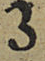3
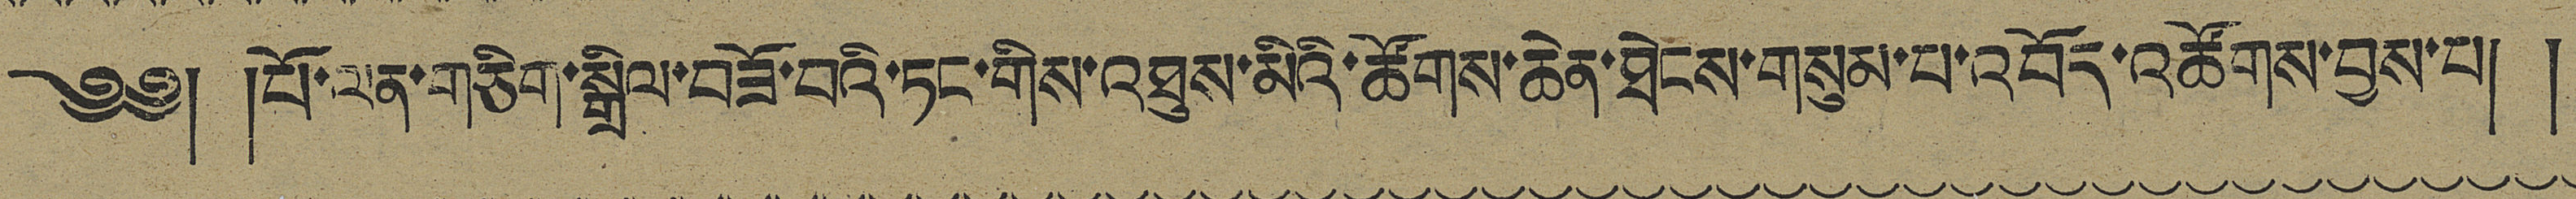༄༅། །པོ་ལན་གཅིག་སྒྲིལ་བཟོ་བའི་ཏང་གིས་འཐུས་མིའི་ཚོགས་ཆེན་ཐེངས་གསུམ་པ་འབོད་འཚོགས་བྱས་པ། །
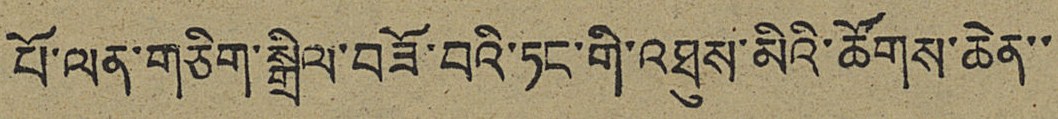པོ་ལན་གཅིག་སྒྲིལ་བཟོ་བའི་ཏང་གི་འཐུས་མིའི་ཚོགས་ཆེན་་
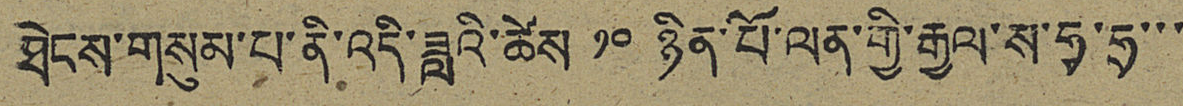ཐེངས་གསུམ་པ་ནི་འདི་ཟླའི་ཚེས ༡༠ ཉིན་པོ་ལན་གྱི་རྒྱལ་ས་ཧྭ་ཧྲ་་་
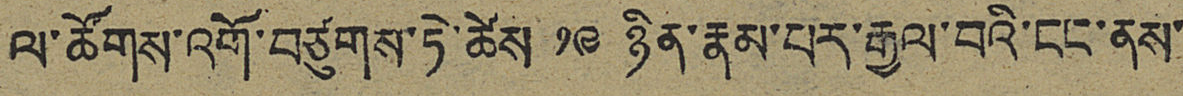ལ་ཚོགས་འགོ་བཙུགས་ཏེ་ཚེས ༡༩ ཉིན་རྣམ་པར་རྒྱལ་བའི་ངང་ནས་
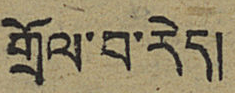གྲོལ་བ་རེད།
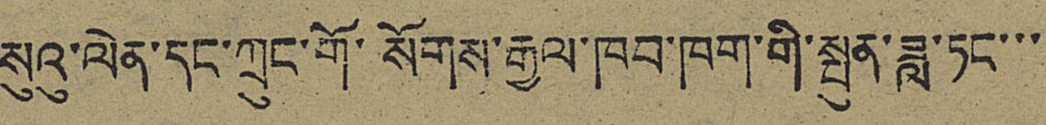སུའུ་ལེན་དང་ཀྲུང་གོ་སོགས་རྒྱལ་ཁབ་ཁག་གི་སྤུན་ཟླ་ཏང་་་
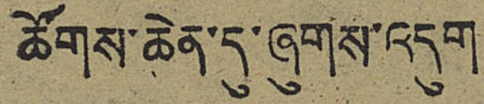ཚོགས་ཆེན་དུ་ཞུགས་འདུག
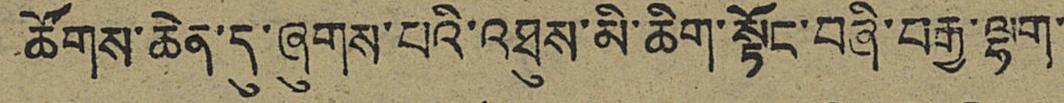ཚོགས་ཆེན་དུ་ཞུགས་པའི་འཐུས་མི་ཆིག་སྟོང་བཞི་བརྒྱ་ལྷག་
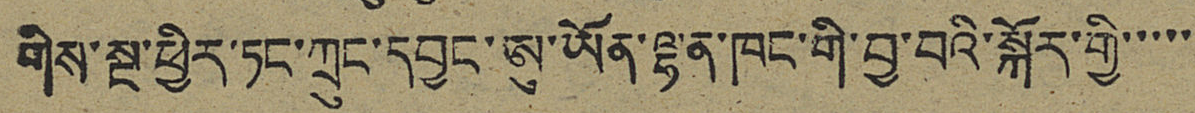གིས་སྔ་ཕྱིར་ཏང་ཀྲུང་དབྱང་ཨུ་ཡོན་ལྷན་ཁང་གི་བྱ་བའི་སྐོར་གྱི་་་་་
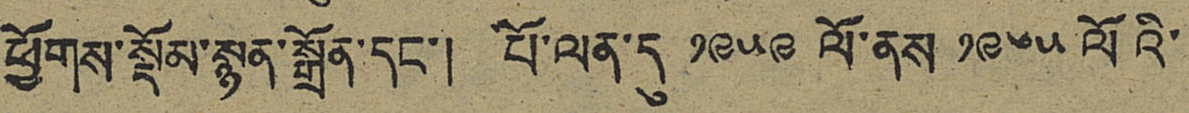ཕྱོགས་སྡོམ་སྙན་སྒྲོན་དང་། པོ་ལན་དུ ༡༩༥༩ ལོ་ནས ༡༩༦༥ ལོའི་
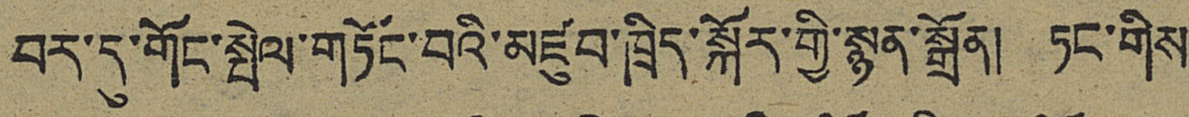བར་དུ་གོང་སྤེལ་གཏོང་བའི་མཛུབ་ཁྲིད་སྐོར་གྱི་སྙན་སྒྲོན། ཏང་གིས
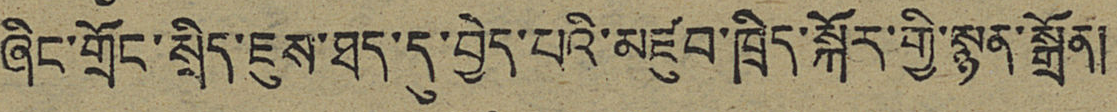ཞིང་གྲོང་སྲིད་ཇུས་ཐད་དུ་བྱེད་པའི་མཛུབ་ཁྲིད་སྐོར་གྱི་སྙན་སྒྲོན།
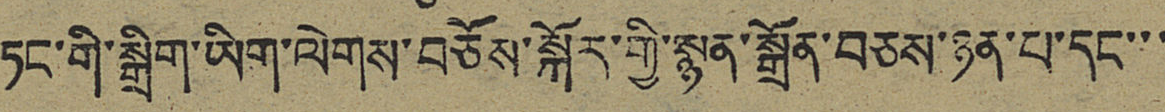ཏང་གི་སྒྲིག་ཡིག་ལེགས་བཅོས་སྐོར་གྱི་སྙན་སྒྲོན་བཅས་ཉན་པ་དང་་་
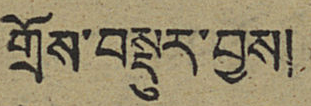གྲོས་བསྡུར་བྱས།
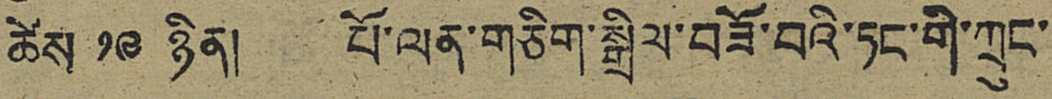ཚེས ༡༩ ཉིན། པོ་ལན་གཅིག་སྒྲིལ་བཟོ་བའི་ཏང་གི་ཀྲུང་
